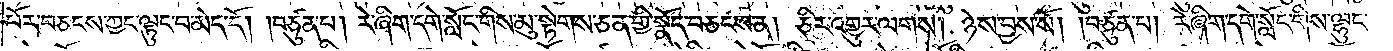པོར་བཅངས་ཀྱང་ལྟུང་བ་མེད་དོ། །བཙུན་པ། རེ་ཞིག་དགེ་སློང་གིས་མུ་སྟེགས་ཅན་གྱི་སྣོད་བཅངས་ན། ཅིར་འགྱུར་ལགས། ཉེས་བྱས་སོ། །བཙུན་པ། རེ་ཞིག་དགེ་སློང་གིས་ལྷུང་
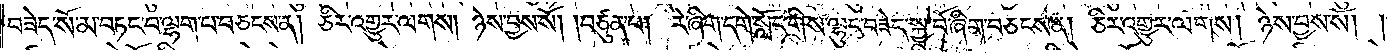བཟེད་སོ་མ་བཏང་བ་ལྷག་པ་བཅངས་ན། ཅིར་འགྱུར་ལགས། ཉེས་བྱས་སོ། །བཙུན་པ། རེ་ཞིག་དགེ་སློང་གིས་ལྷུང་བཟེད་སྐྱ་བོ་ཞིག་བཅངས་ན། ཅིར་འགྱུར་ལགས། ཉེས་བྱས་སོ། །
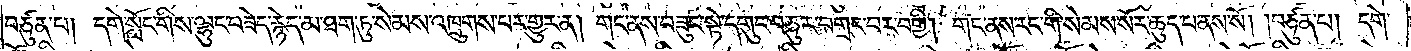བཙུན་པ། དགེ་སློང་གིས་ལྷུང་བཟེད་རྙེད་མ་ཐག་ཏུ་སེམས་འཁྲུགས་པར་གྱུར་ན། གང་ནས་བཟུང་སྟེ་དགུང་བཅུར་བགྲང་བར་བགྱི། གང་ནས་རང་གི་སེམས་སོར་ཆུད་པ་ནས་སོ། །བཙུན་པ། དགེ་
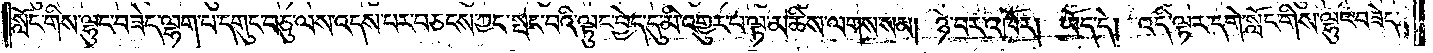སློང་གིས་ལྷུང་བཟེད་ལྷག་པ་དགུང་བཅུ་ལས་འདས་པར་བཅངས་ཀྱང་སྤང་བའི་ལྟུང་བྱེད་དུ་མི་འགྱུར་པ་ལྟ་མཆིས་ལགས་སམ། ཉེ་བར་འཁོར། ཡོད་དེ། འདི་ལྟར་དགེ་སློང་གིས་ལྷུང་བཟེད་
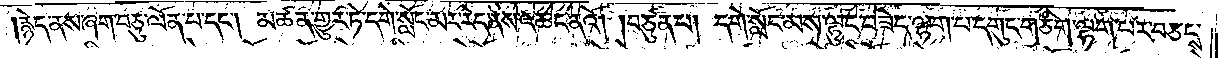རྙེད་ནས་ཞག་བཅུ་ལོན་པ་དང༌། མཚན་གྱུར་ཏེ་དགེ་སློང་མར་རེད་ནས་འཆང་ནའོ། །བཙུན་པ། དགེ་སློང་མས་ལྷུང་བཟེད་ལྷག་པ་དགུང་གཅིག་ལྷག་པར་བཅངས་
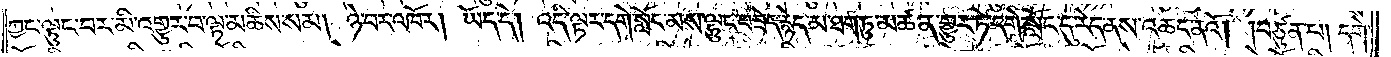ཀྱང་ལྟུང་བར་མི་འགྱུར་བ་ལྟ་མཆིས་སམ། ཉེ་བར་འཁོར། ཡོད་དེ། འདི་ལྟར་དགེ་སློང་མས་ལྷུང་བཟེད་རྙེད་མ་ཐག་ཏུ་མཚན་གྱུར་ཏེ་དགེ་སློང་དུ་རེད་ནས་འཆང་ནའོ། །བཙུན་པ། དགེ་
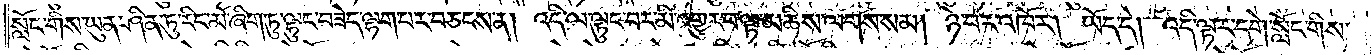སློང་གིས་ཡུན་ཤིན་ཏུ་རིང་མོ་ཞིག་ཏུ་ལྷུང་བཟེད་ལྷག་པར་བཅངས་ན། འདི་ལ་ལྟུང་བར་མི་འགྱུར་བ་ལྟ་མཆིས་ལགས་སམ། ཉེ་བར་འཁོར། ཡོད་དེ། འདི་ལྟར་དགེ་སློང་གིས་
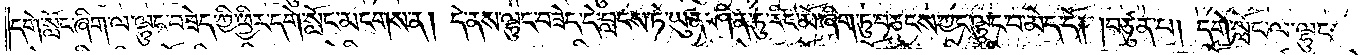དགེ་སློང་ཞིག་ལ་ལྷུང་བཟེད་ཀྱི་ཕྱིར་དགེ་སློང་མངགས་ན། དེ་ནས་ལྷུང་བཟེད་དེ་བླངས་ཏེ་ཡུན་ཤིན་ཏུ་རིང་མོ་ཞིག་ཏུ་བཅངས་ཀྱང་ལྟུང་བ་མེད་དོ། །བཙུན་པ། དགེ་སློང་ལ་ལྷུང་
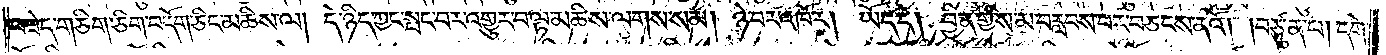བཟེད་གཅིག་ཅིག་བདོག་ཅིང་མཆིས་ལ། དེ་ཉིད་ཀྱང་སྤང་བར་འགྱུར་བ་ལྟ་མཆིས་ལགས་སམ། ཉེ་བར་འཁོར། ཡོད་དེ། བྱིན་གྱིས་མ་བརླབས་པར་བཅངས་ནའོ། །བཙུན་པ། དགེ་
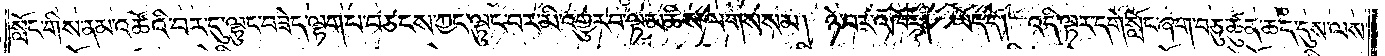སློང་གིས་ནམ་འཚོའི་བར་དུ་ལྟུང་བཟེད་ལྟག་པ་བཅངས་ཀྱང་ལྟུང་བར་མི་འགྱུར་བ་ལྟ་མཆིས་ལགས་སམ། ཉེ་བར་འཁོར། ཡོད་དེ། འདི་ལྟར་དགེ་སློང་ཞག་བཅུ་ཚུན་ཆད་དུས་ལས་
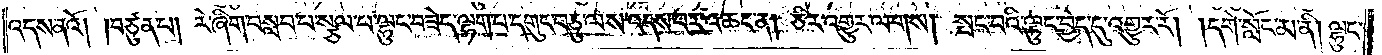འདས་ནའོ། །བཙུན་པ། རེ་ཞིག་བསླབ་པ་སྩལ་པ་ལྷུང་བཟེད་ལྷག་པ་དགུང་བཅུ་ལས་འདས་པར་འཆང་ན། ཅིར་འགྱུར་ལགས། སྤང་བའི་ལྟུང་བྱེད་དུ་འགྱུར་རོ། །དགེ་སློང་མ་ནི། ལྷུང་
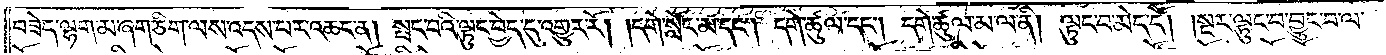བཟེད་ལྷག་མ་ཞག་ཅིག་ལས་འདས་པར་འཆང་ན། སྤང་བའི་ལྟུང་བྱེད་དུ་འགྱུར་རོ། །དགེ་སློང་མ་དང༌། དགེ་ཚུལ་དང༌། དགེ་ཚུལ་མ་ལ་ནི། ལྟུང་བ་མེད་དོ། །སྔར་ལྟུང་བ་བྱུང་བ་ལ་
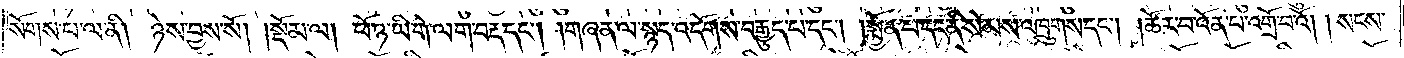སོགས་པ་ལ་ནི། ཉེས་བྱས་སོ།    །སྡོམ་ལ། ཕོ་ཉ་ཡི་གེ་ལག་བརྡ་དང༌། །གཞན་ལ་སྙད་འདོགས་བརྒྱུད་པ་དང༌། །སྨྱོན་པ་དང་ནི་སེམས་འཁྲུགས་དང༌། །ཚོར་བ་འོན་པ་འགྲོ་བའོ། །སངས་
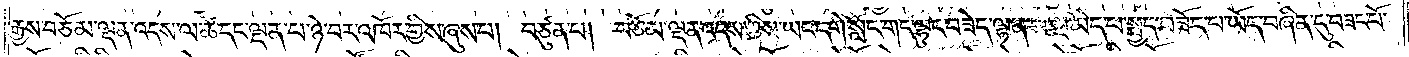རྒྱས་བཅོམ་ལྡན་འདས་ལ་ཚེ་དང་ལྡན་པ་ཉེ་བར་འཁོར་གྱིས་ཞུས་པ། བཙུན་པ། བཅོམ་ལྡན་འདས་ཀྱིས་ཡང་དགེ་སློང་གང་ལྷུང་བཟེད་ལྷན་པ་ལྔ་མེད་པ་སྤྱད་བཟོད་པ་ཡོད་བཞིན་དུ་བཟང་པོ་
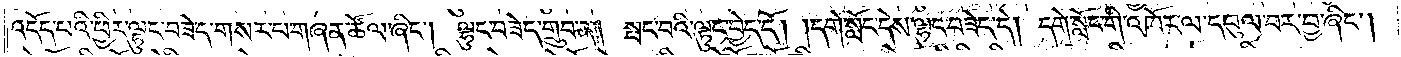འདོད་པའི་ཕྱིར་ལྷུང་བཟེད་གསར་པ་གཞན་ཚོལ་ཞིང༌། ལྷུང་བཟེད་གྲུབ་ན། སྤང་བའི་ལྟུང་བྱེད་དོ། །དགེ་སློང་དེས་ལྷུང་བཟེད་དེ། དགེ་སློང་གི་འཁོར་ལ་དབུལ་བར་བྱ་ཞིང༌།
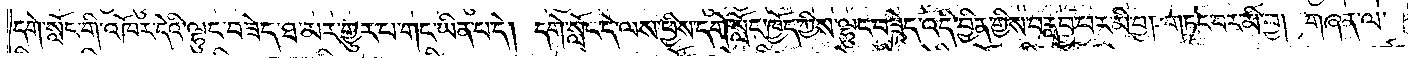དགེ་སློང་གི་འཁོར་དེའི་ལྷུང་བཟེད་ཐ་མར་གྱུར་པ་གང་ཡིན་པ་དེ། དགེ་སློང་དེ་ལས་ཕྱིས་དགེ་སློང་ཁྱོད་ཀྱིས་ལྷུང་བཟེད་འདི་བྱིན་གྱིས་བརླབ་པར་མི་བྱ། གཏང་བར་མི་བྱ། གཞན་ལ་
